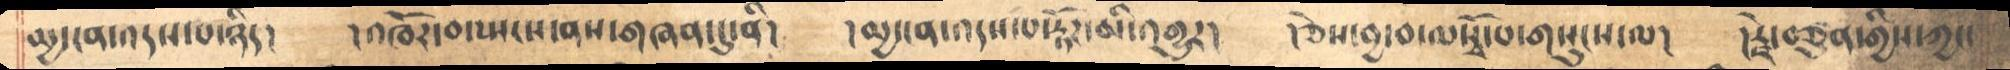མྱ་ངན་འདས་པ་ཉིད། དའཁོར་བ་སྤངས་ནས་གཞན་དུ་ནི། །མྱ་ངན་འདས་པ་རྟོཌ་མི་འགྱུར།  །ཅེས་བྱ་བ་ལསྭོ་པ་གསུངས་ལ། །རྗེ་བཙུན་གྱིས་ཀྱང་
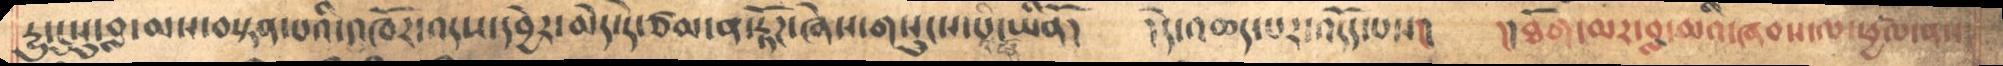དྱུ་དུསུ་བླ་མས་བསྟན་པའི་འཁོར་འདས་དབྱེར་མེད་དེ་ཙམ་ན་རྟོཌ་ཞེས་གསུངས་པ་ཡིནོ། །དེ་འཆད་པར་འདོད་པས།། །།ཐོག་མར་བླ་མའི་ཞབས་ལ་ཕྱཚལ་ནས་།
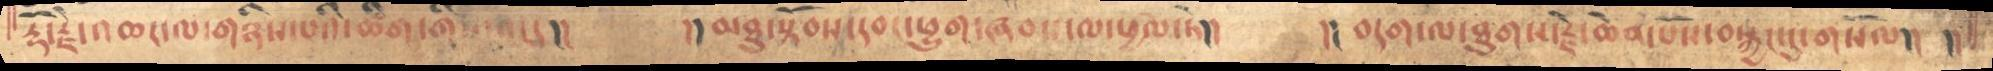རྡོ་རྗེ་འཆང་ལ་གཉིས་པའི་ཚིག་གིས་ནང་དུ།།    །།མཐུ་སྟོབས་དབང་ཕྱུག་ཞབས་ལ་ཕྱཚལ་ཏེ།།   །།བདག་ལ་ཐུགས་རྗེ་ཆེན་པོས་བསྐྱང་དུ་གསོལ།།  །།
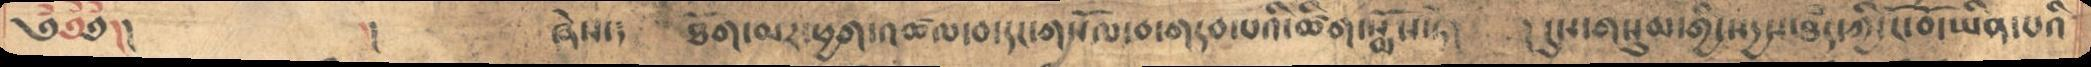༄༅༅།།      །།       ཞེས་༑   ཐོག་མར་ཕྱག་འཚལ་བ་དང་གསོལ་བ་གདབ་པའི་ཚིག་སྨོས་ཏེ།    །དུས་གསུམ་གྱི་སདྱས་ཐམད་ཀྱི་ངོ་བོད་ཡིན་པའི
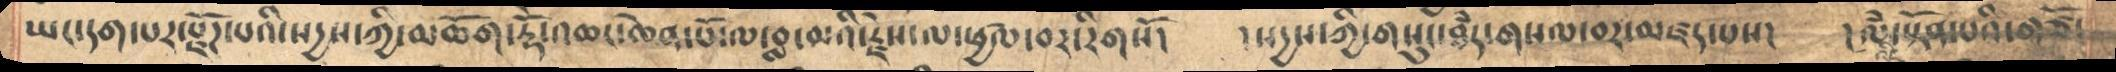ཡང་དག་པར་རྫོཌ་པའི་སདྱས་ཀྱི་མཆོག་རྡོེ་འཆང་ཆེན་པོ་ལ་བླ་མའི་རྗེས་ལ་ཕྱཚལ་བར་རིགསོ།   །སདྱས་ཀྱི་གསུང་ཐཾད་གསལ་བར་མཛད་པས།   །ལཾ་སྟོན་པའི་གཙོ་
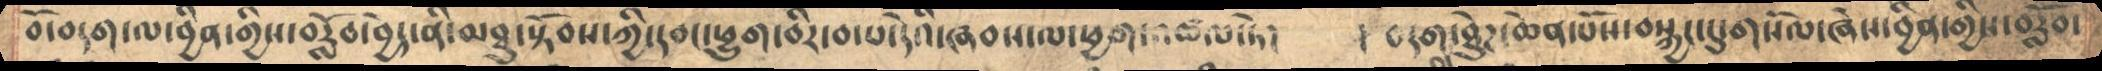བོ་བདག་ལ་བྱིན་གྱིས་བརློབ་བྱེད་ནི་མཐུ་སྟོབས་ཀྱི་དབང་ཕྱུག་བིར་བ་པ་དེའི་ཞབས་ལ་ཕྱག་འཚལ་ཏེ།    །  བདག་ལ་ཐེུཌ་ཆེན་པོས་བསྐྱང་དུ་གསོལ་ཞེས་བྱིན་གྱིས་བརློབ་
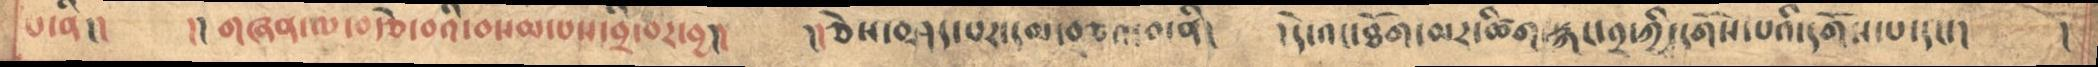པ་ནི།།   །།གཞན་ལ་བརྩེ་བའི་བསམ་པས་བྲི་བར་བྱ།།  །།ཅེས་བཤད་པར་དམ་བཅའ་བ་ནི།   ་དེ་འང་ཐོག་མར་ཚིག་རྐང་༢་ཀྱི་དགོས་པའི་དགོས་པ་དང་།  །
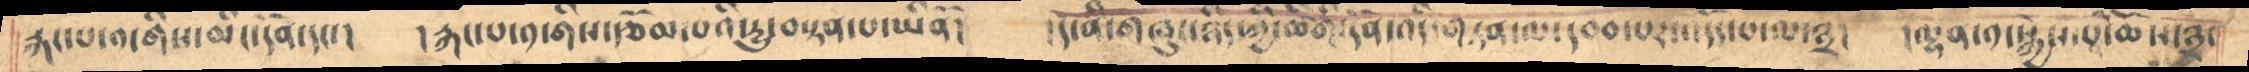རྐང་པ་བདགིས་མིང་དོན་དང་།    །རྐང་པ་༡་གིས་རྩོམ་པའི་དྱུ་བསྟན་པ་ཡིནོ།    །ད་ནི་གཞུང་ཉིད་ཀྱི་ཚིག་དོན་འདི་གཏན་ལ་དབབ་པར་འདོད་པ་ལ་༣།  །ལྷན་༡་སྐྱེས་པ་ཆོདར་༣་
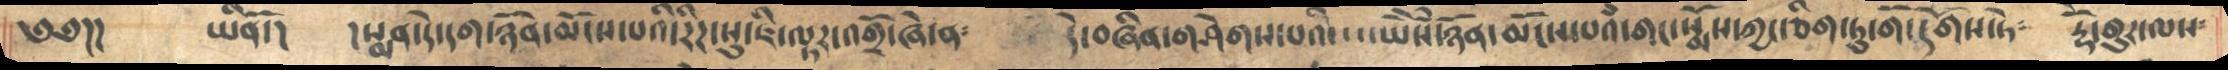༄༅།།     ཡིནོ་།  །སྨན་དེ་དག་ཉོན་མོངས་པའི་རིཌ་སུ་ཇི་ལྟར་འགྲོ་ཞེ་ན༴    དེ་བཞིན་གཤེགས་པའི་ཡཻས་ཉོན་མོངས་པའི་གང་སྨོས་ཀྱང་གཅིག་ཏུ་གོ་དགོས་ཏེ༴   དྷོེ་གུར་ལས༴
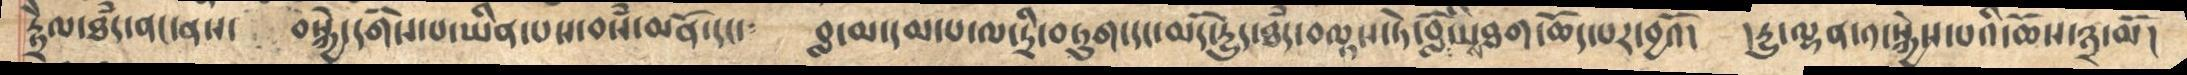རྟྲཻལ་ཐཾད་ནང་ནས།  བསྐྱེ་དགོས་པ་ཡིན་པས་བསཾ་མནོ་དང་༴  བླ་མ་དམ་པ་ལ་དྲི་བཏུག་དང་མདོ་དྱུད་ཐཾད་བལྟས་ཏེ་བློ་ཡིས་ཐག་ཆོད་པར་བྱའོ།  །དྱུ་ལྷན་༡་སྐྱེས་པའི་ཆོས་༣་མོ།
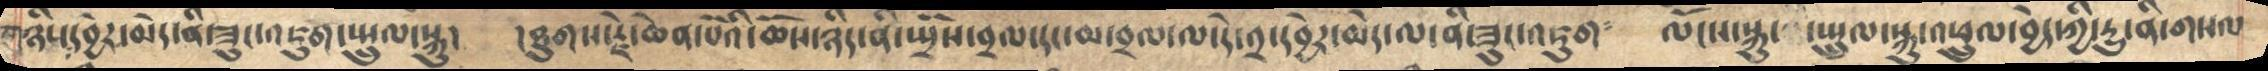གཉིས་དབྱེར་མེད་ནི་ཟུང་འཇུག་སྤྲུལ་སྐུ།   །ཐུགས་རྗེ་ཆེན་པོའི་ཆོས་ཉིད་ནི་སྤྲོས་བྲལ་དང་མ་བྲལ་ལ་དེ་༢་དབྱེར་མེད་ལ་ནི་ཟུང་འཇུག༴   ལོངས་སྐུ་ སྤྲུལ་སྐུ་འཕྲུལ་བྱེད་ཀྱི་དྱུ་ནི་གསལ
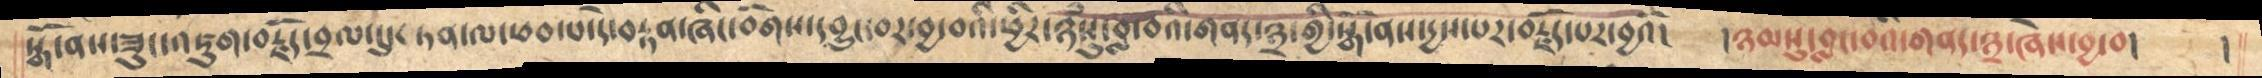སྒོ་ནས་ཟུང་འཇུག་བརྗོད་བྲལ་དུ་ ཏན་ལ་ཕབ་པ་དེ་བརྟན་ཞིང་བོགས་དབྱུང་བར་བྱ་བའི་ཕྱིར་ཉཾསུ་བླ་བའི་གནད་༣་གྱི་སྒོ་ནས་དྱས་པར་བརྗོད་པར་བྱའོ།   །ཉམསུ་བླང་བའི་གནད་༣་ཞེས་བྱ་བ།   །
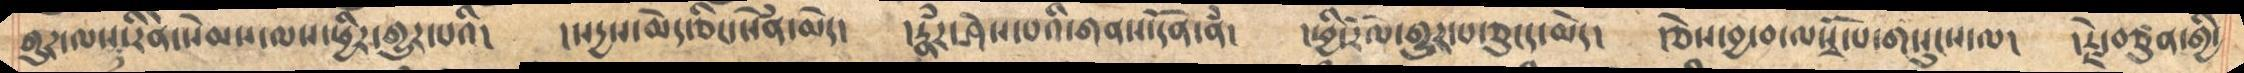ཐུཌ་ལས་རིེན་སེམས་ལས་ཕྱིར་གྱུར་པའི།   །སདྱས་མེད་ཅིང་སེམན་མེད།   རྣཾརཤེས་པའི་གནས་དོན་ནཾ། །ཕྱི་རོལ་གྱུར་པ་ཅུངད་མེད།   །ཅེས་བྱ་བ་ལསྭོ་པ་གསུངས་ལ།   །རྗེ་བཙུན་གྱི་
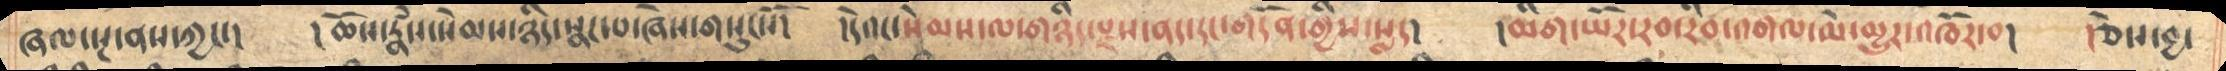ཞལ་སྔ་ནས་ཀྱང་།   །ཆོས་རྣཾས་སེམས་ཉིདསྣང་བ་ཞེས་གསུངསོ།   །དེའང་སེམས་ལ་གཉིད་སྫས་ནད་དང་གདོན་གྱིས་སླད།   །མིག་ཡོར་རབ་རིབ་འགལ་མེ་མྱུར་འཁོར་བ།   །ཅེས་བྱ་
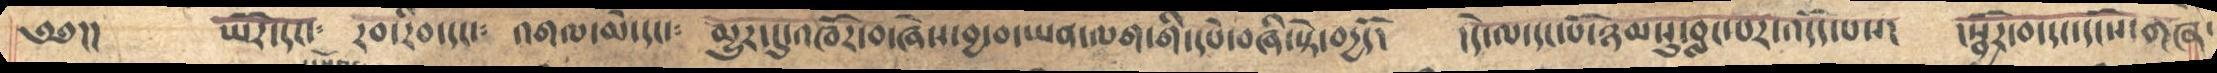༄༅།།     ཡོར་དང་༴   རབ་རིབ་དང་༴  འགལ་མེ་དང་༴   མྱུར་དུ་འཁོར་བ་ཞེས་བྱ་བ་ཡན་ལག་གི་དཔེ་བཞི་སྟེ་བདྱདོ།   །དེ་ལ་དང་པོ་ཉམསུ་བླང་པར་འདོད་པས།    །སྦྱོར་བ་དང་དངོས་གཞི་
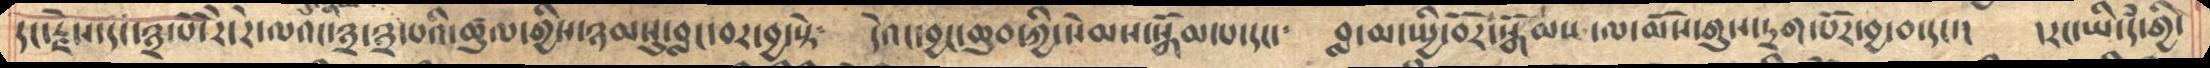དང་རྗེས་དང་༣་དེཔེ་རེ་རེ་ལའང་༣་༣་པའི་ཚུལ་གྱིས་ཉམསུ་བླང་བར་བྱ་སྟེ༴ དེའང་བྱང་ཆུབ་ཀྱི་སེམས་སྒོམ་པ་དང་༴ བླ་མ་སྤྱི་བོར་སྒོམས་ལ་མོས་གུས་དྲག་པོར་བྱ་བ་དང་།  །རང་ཡི་དྃ་གྱི་
